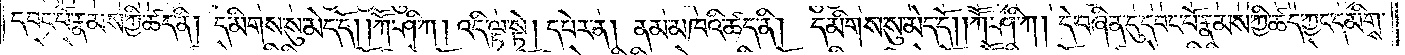དབང་པོ་རྣམས་ཀྱི་ཚད་ནི། དམིགས་སུ་མེད་དོ། །ཀཽ་ཤི་ཀ། འདི་ལྟ་སྟེ། དཔེར་ན། ནམ་མཁའི་ཚད་ནི། དམིགས་སུ་མེད་དོ། །ཀཽ་ཤི་ཀ། དེ་བཞིན་དུ་དབང་པོ་རྣམས་ཀྱི་ཚད་ཀྱང་དམིགས་
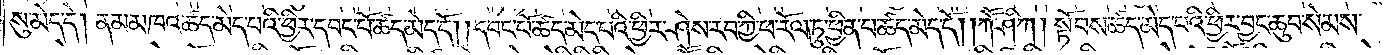སུ་མེད་དེ། ནམ་མཁའ་ཚད་མེད་པའི་ཕྱིར་དབང་པོ་ཚད་མེད་དོ། །དབང་པོ་ཚད་མེད་པའི་ཕྱིར་ཤེས་རབ་ཀྱི་ཕ་རོལ་ཏུ་ཕྱིན་པ་ཚད་མེད་དོ། །ཀཽ་ཤི་ཀ། སྟོབས་ཚད་མེད་པའི་ཕྱིར་བྱང་ཆུབ་སེམས་
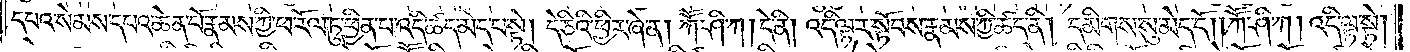དཔའ་སེམས་དཔའ་ཆེན་པོ་རྣམས་ཀྱི་ཕ་རོལ་ཏུ་ཕྱིན་པ་འདི་ཚད་མེད་པ་སྟེ། དེ་ཅིའི་ཕྱིར་ཞེ་ན། ཀཽ་ཤི་ཀ། དེ་ནི། འདི་ལྟར་སྟོབས་རྣམས་ཀྱི་ཚད་ནི། དམིགས་སུ་མེད་དོ། །ཀཽ་ཤི་ཀ། འདི་ལྟ་སྟེ།
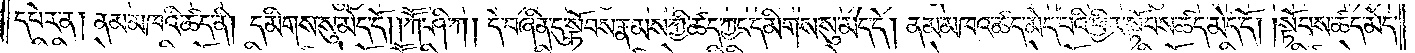དཔེར་ན། ནམ་མཁའི་ཚད་ནི། དམིགས་སུ་མེད་དོ། །ཀཽ་ཤི་ཀ། དེ་བཞིན་དུ་སྟོབས་རྣམས་ཀྱི་ཚད་ཀྱང་དམིགས་སུ་མེད་དེ། ནམ་མཁའ་ཚད་མེད་པའི་ཕྱིར་སྟོབས་ཚད་མེད་དོ། །སྟོབས་ཚད་མེད་
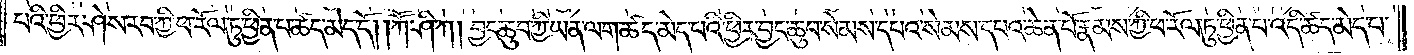པའི་ཕྱིར་ཤེས་རབ་ཀྱི་ཕ་རོལ་ཏུ་ཕྱིན་པ་ཚད་མེད་དོ། །ཀཽ་ཤི་ཀ། བྱང་ཆུབ་ཀྱི་ཡན་ལག་ཚད་མེད་པའི་ཕྱིར་བྱང་ཆུབ་སེམས་དཔའ་སེམས་དཔའ་ཆེན་པོ་རྣམས་ཀྱི་ཕ་རོལ་ཏུ་ཕྱིན་པ་འདི་ཚད་མེད་པ་
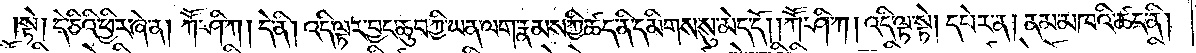སྟེ། དེ་ཅིའི་ཕྱིར་ཞེ་ན། ཀཽ་ཤི་ཀ། དེ་ནི། འདི་ལྟར་བྱང་ཆུབ་ཀྱི་ཡན་ལག་རྣམས་ཀྱི་ཚད་ནི་དམིགས་སུ་མེད་དོ། །ཀཽ་ཤི་ཀ། འདི་ལྟ་སྟེ། དཔེར་ན། ནམ་མཁའི་ཚད་ནི།
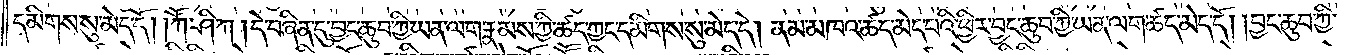དམིགས་སུ་མེད་དོ། །ཀཽ་ཤི་ཀ། དེ་བཞིན་དུ་བྱང་ཆུབ་ཀྱི་ཡན་ལག་རྣམས་ཀྱི་ཚད་ཀྱང་དམིགས་སུ་མེད་དེ། ནམ་མཁའ་ཚད་མེད་པའི་ཕྱིར་བྱང་ཆུབ་ཀྱི་ཡན་ལག་ཚད་མེད་དོ། །བྱང་ཆུབ་ཀྱི་
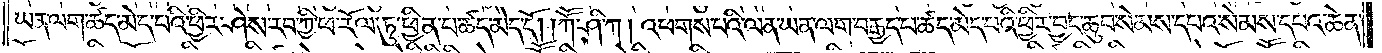ཡན་ལག་ཚད་མེད་པའི་ཕྱིར་ཤེས་རབ་ཀྱི་ཕ་རོལ་ཏུ་ཕྱིན་པ་ཚད་མེད་དོ། །ཀཽ་ཤི་ཀ། འཕགས་པའི་ལན་ཡན་ལག་བརྒྱད་པ་ཚད་མེད་པའི་ཕྱིར་བྱང་ཆུབ་སེམས་དཔའ་སེམས་དཔའ་ཆེན་
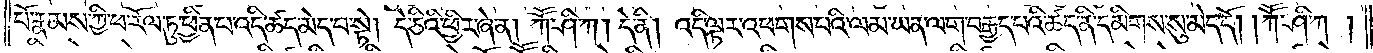པོ་རྣམས་ཀྱི་ཕ་རོལ་ཏུ་ཕྱིན་པ་འདི་ཚད་མེད་པ་སྟེ། དེ་ཅིའི་ཕྱིར་ཞེ་ན། ཀཽ་ཤི་ཀ། དེ་ནི། འདི་ལྟར་འཕགས་པའི་ལམ་ཡན་ལག་བརྒྱད་པའི་ཚད་ནི་དམིགས་སུ་མེད་དོ། །ཀཽ་ཤི་ཀ །
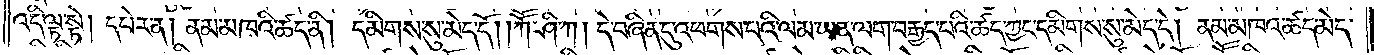འདི་ལྟ་སྟེ། དཔེར་ན། ནམ་མཁའི་ཚད་ནི། དམིགས་སུ་མེད་དོ། །ཀཽ་ཤི་ཀ། དེ་བཞིན་དུ་འཕགས་པའི་ལམ་ཡན་ལག་བརྒྱད་པའི་ཚད་ཀྱང་དམིགས་སུ་མེད་དེ། ནམ་མཁའ་ཚད་མེད་
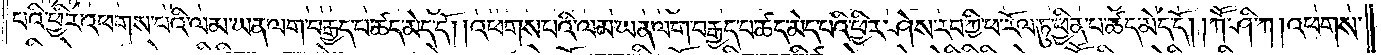པའི་ཕྱིར་འཕགས་པའི་ལམ་ཡན་ལག་བརྒྱད་པ་ཚད་མེད་དོ། །འཕགས་པའི་ལམ་ཡན་ལག་བརྒྱད་པ་ཚད་མེད་པའི་ཕྱིར་ཤེས་རབ་ཀྱི་ཕ་རོལ་ཏུ་ཕྱིན་པ་ཚད་མེད་དོ། །ཀཽ་ཤི་ཀ། འཕགས་
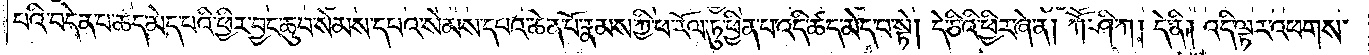པའི་བདེན་པ་ཚད་མེད་པའི་ཕྱིར་བྱང་ཆུབ་སེམས་དཔའ་སེམས་དཔའ་ཆེན་པོ་རྣམས་ཀྱི་ཕ་རོལ་ཏུ་ཕྱིན་པ་འདི་ཚད་མེད་པ་སྟེ། དེ་ཅིའི་ཕྱིར་ཞེ་ན། ཀཽ་ཤི་ཀ། དེ་ནི། འདི་ལྟར་འཕགས་
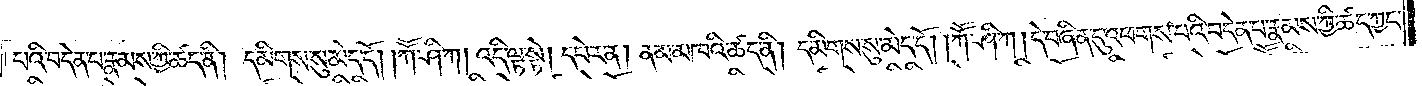པའི་བདེན་པ་རྣམས་ཀྱི་ཚད་ནི། དམིགས་སུ་མེད་དོ། །ཀཽ་ཤི་ཀ། འདི་ལྟ་སྟེ། དཔེར་ན། ནམ་མཁའི་ཚད་ནི། དམིགས་སུ་མེད་དོ། །ཀཽ་ཤི་ཀ། དེ་བཞིན་དུ་འཕགས་པའི་བདེན་པ་རྣམས་ཀྱི་ཚད་ཀྱང་
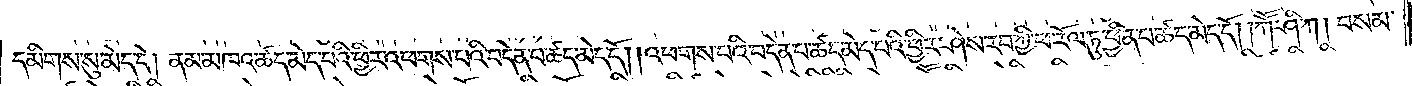དམིགས་སུ་མེད་དེ། ནམ་མཁའ་ཚད་མེད་པའི་ཕྱིར་འཕགས་པའི་བདེན་པ་ཚད་མེད་དོ། །འཕགས་པའི་བདེན་པ་ཚད་མེད་པའི་ཕྱིར་ཤེས་རབ་ཀྱི་ཕ་རོལ་ཏུ་ཕྱིན་པ་ཚད་མེད་དོ། །ཀཽ་ཤི་ཀ། བསམ་
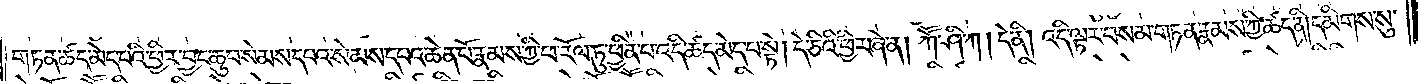གཏན་ཚད་མེད་པའི་ཕྱིར་བྱང་ཆུབ་སེམས་དཔའ་སེམས་དཔའ་ཆེན་པོ་རྣམས་ཀྱི་ཕ་རོལ་ཏུ་ཕྱིན་པ་འདི་ཚད་མེད་པ་སྟེ། དེ་ཅིའི་ཕྱིར་ཞེ་ན། ཀཽ་ཤི་ཀ། དེ་ནི། འདི་ལྟར་བསམ་གཏན་རྣམས་ཀྱི་ཚད་ནི། དམིགས་སུ་
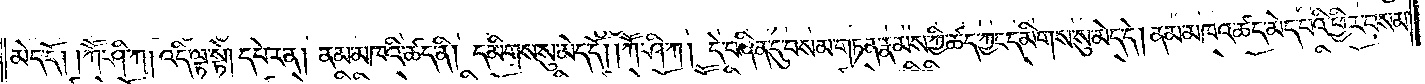མེད་དོ། །ཀཽ་ཤི་ཀ། འདི་ལྟ་སྟེ། དཔེར་ན། ནམ་མཁའི་ཚད་ནི། དམིགས་སུ་མེད་དོ། །ཀཽ་ཤི་ཀ། དེ་བཞིན་དུ་བསམ་གཏན་རྣམས་ཀྱི་ཚད་ཀྱང་དམིགས་སུ་མེད་དེ། ནམ་མཁའ་ཚད་མེད་པའི་ཕྱིར་བསམ་
